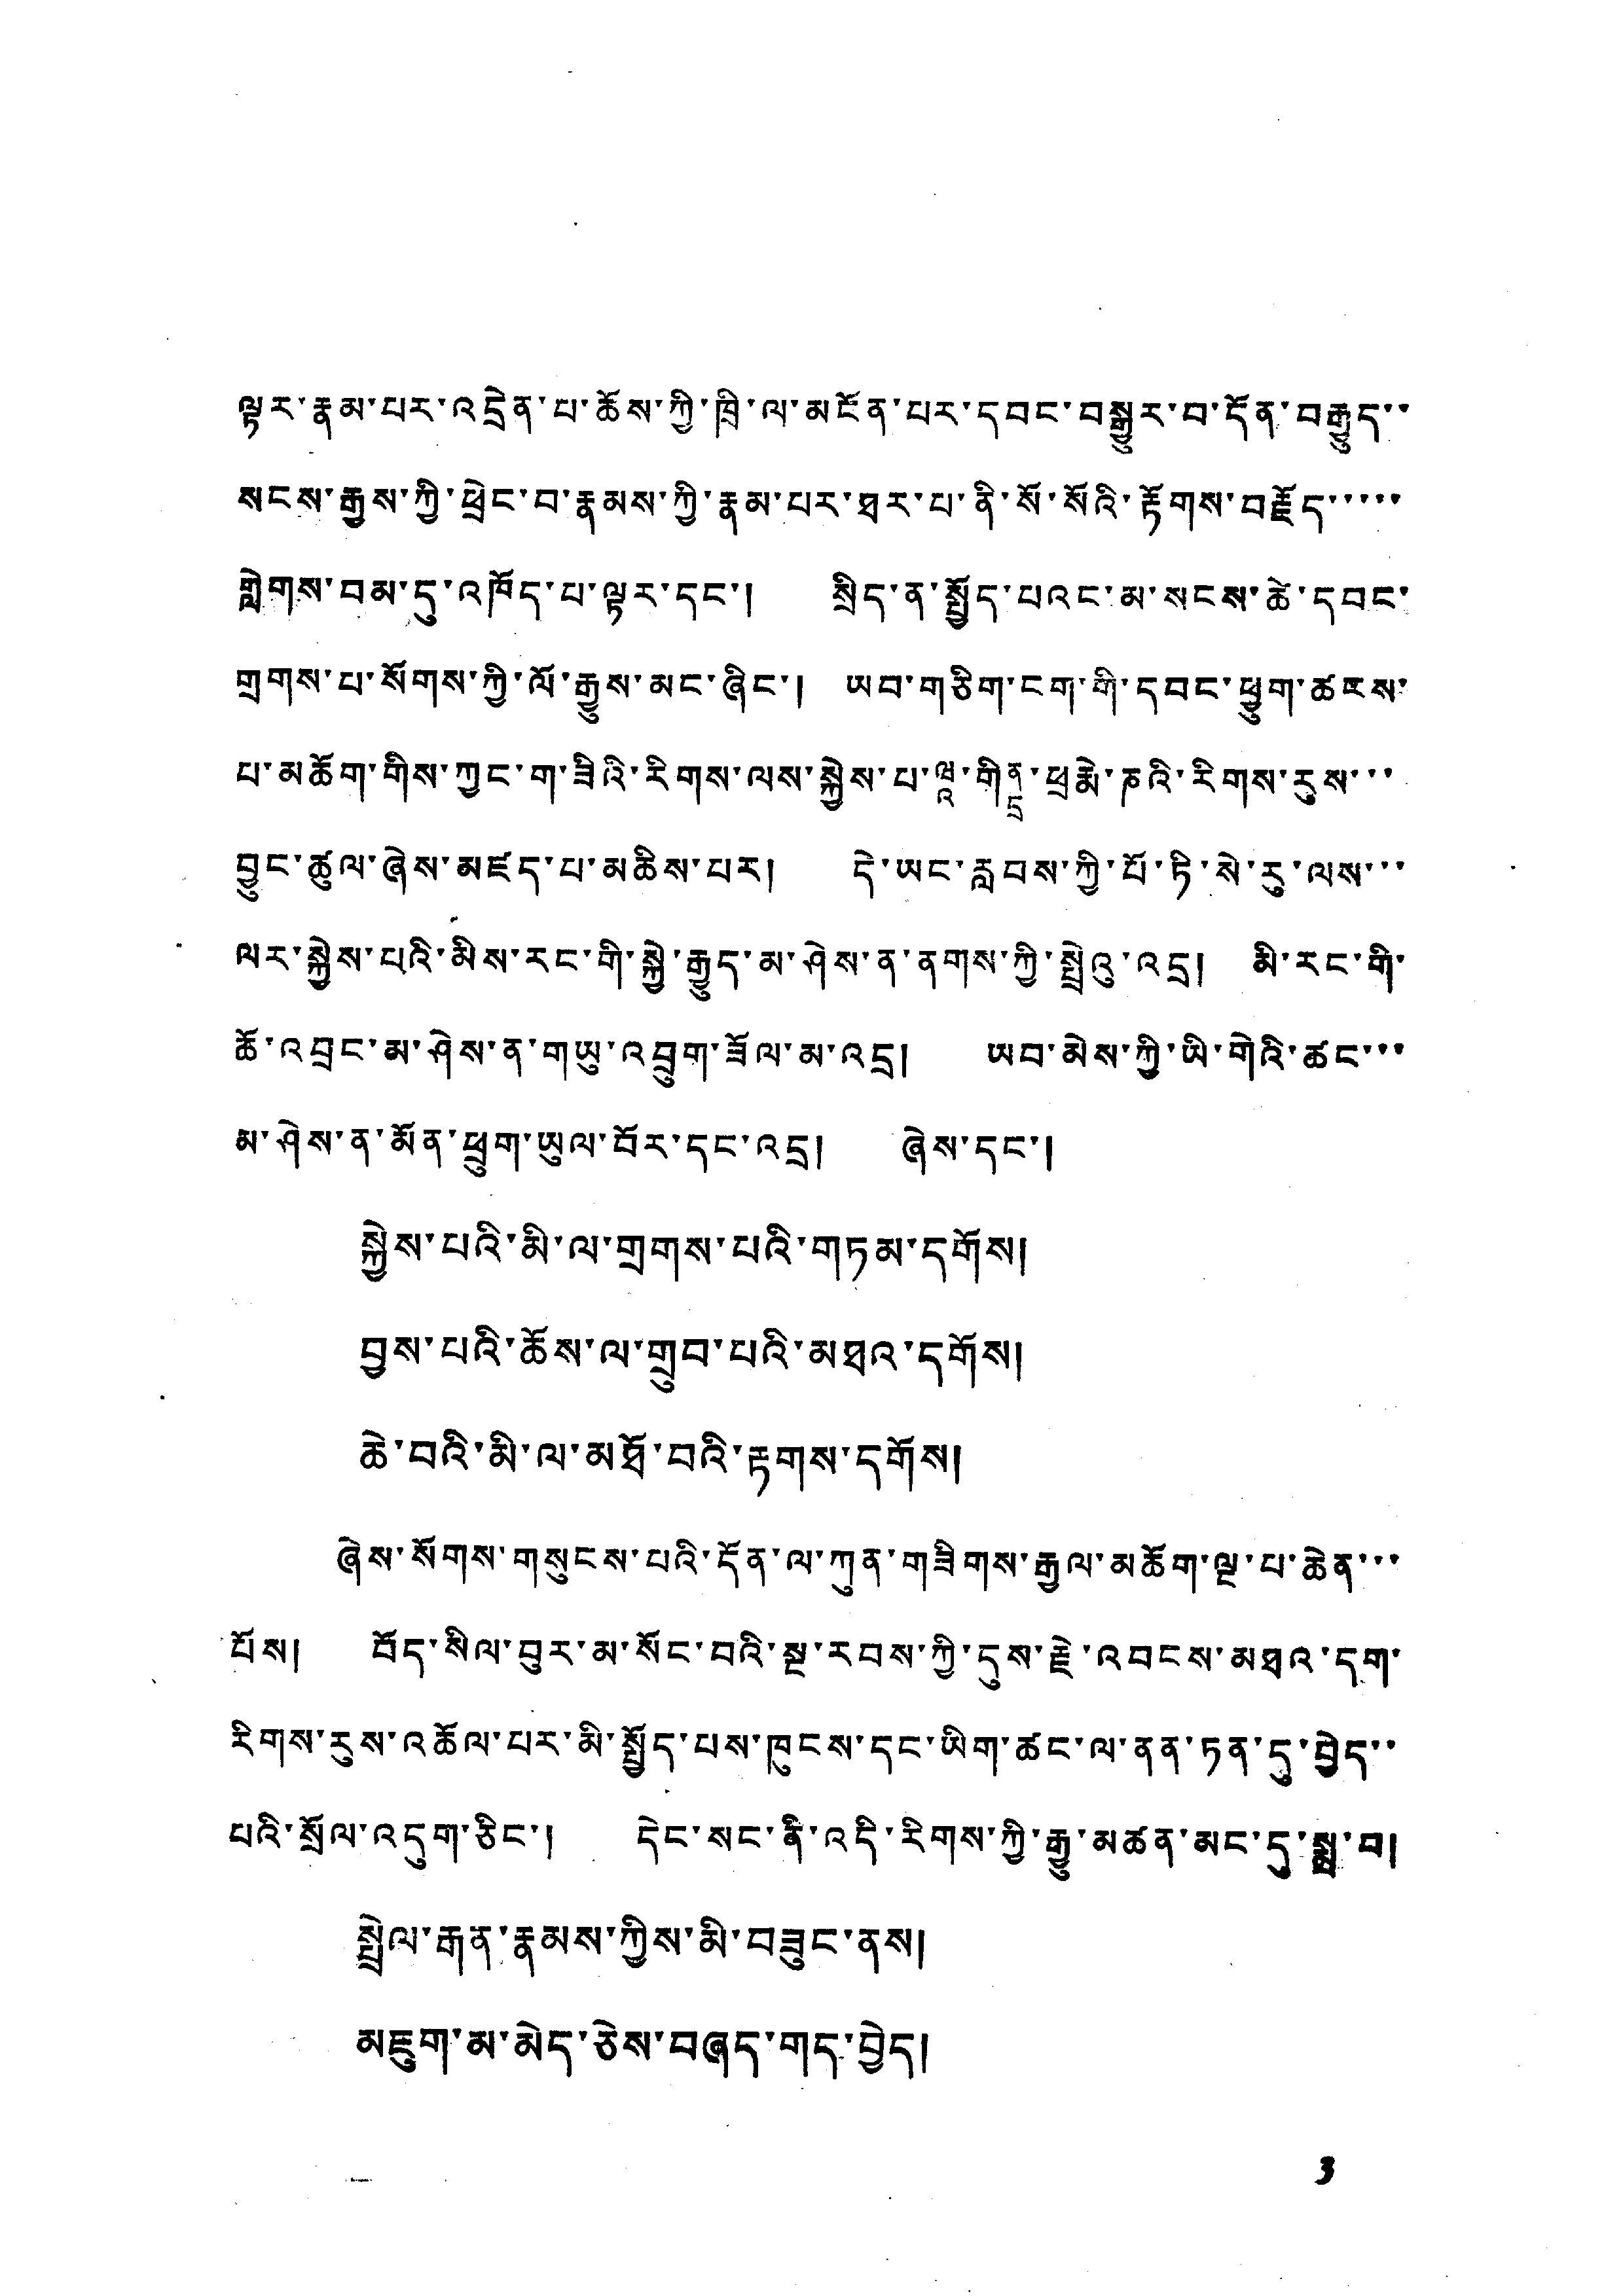ལྟར་རྣམ་པར་འདྲེན་པ་ཆོས་ཀྱི་ཁྲི་ལ་མངོན་པར་དབང་བསྒྱུར་བ་དོན་བརྒྱུད་་
སངས་རྒྱས་ཀྱི་ཕྲེང་བ་རྣམས་ཀྱི་རྣམ་པར་ཐར་པ་ནི་སོ་སོའི་རྟོགས་བརྗོད་་་་་
གླེགས་བམ་དུ་འཁོད་པ་ལྟར་དང་། སྲིད་ན་སྤྱོད་པའང་མ་སངས་ཚེ་དབང་
གྲགས་པ་སོགས་ཀྱི་ལོ་རྒྱུས་མང་ཞིང་། ཡབ་གཅིག་ངག་གི་དབང་ཕྱུག་ཚངས་
པ་མཆོག་གིས་ཀྱང་ག་ཟིའི་རིགས་ལས་སྐྱེས་པ་ཝཱ་གིནྡྲ་ཕྲརྨེ་ཎའི་རིགས་རུས་་་
བྱུང་ཚུལ་ཞེས་མཛད་པ་མཆིས་པར། དེ་ཡང་རླབས་ཀྱི་པོ་ཏི་སེ་རུ་ལས་་་
ལར་སྐྱེས་པའི་མིས་རང་གི་སྐྱེ་རྒྱུད་མ་ཤེས་ན་ནགས་ཀྱི་སྤྲེའུ་འདྲ། མི་རང་གི་
ཆོ་འབྲང་མ་ཤེས་ན་གཡུ་འབྲུག་ཟོལ་མ་འདྲ། ཡབ་མེས་ཀྱི་ཡི་གེའི་ཚང་་་
མ་ཤེས་ན་མོན་ཕྲུག་ཡུལ་བོར་དང་འདྲ། ཞེས་དང་།
སྐྱེས་པའི་མི་ལ་གྲགས་པའི་གཏམ་དགོས།
བྱས་པའི་ཆོས་ལ་གྲུབ་པའི་མཐའ་དགོས།
ཆེ་བའི་མི་ལ་མཐོ་བའི་རྟགས་དགོས།
ཞེས་སོགས་གསུངས་པའི་དོན་ལ་ཀུན་གཟིགས་རྒྱལ་མཆོག་ལྔ་པ་ཆེན་་་
པོས། བོད་སིལ་བུར་མ་སོང་བའི་སྔ་རབས་ཀྱི་དུས་རྗེ་འབངས་མཐའ་དག་
རིགས་རུས་འཆོལ་པར་མི་སྤྱོད་པས་ཁུངས་དང་ཡིག་ཚང་ལ་ནན་ཏན་དུ་བྱེད་་
པའི་སྲོལ་འདུག་ཅིང་། དེང་སང་ནི་འདི་རིགས་ཀྱི་རྒྱུ་མཚན་མང་དུ་སྨྲ་བ།
སྤེལ་རྒན་རྣམས་ཀྱིས་མི་བཟུང་ནས།
མཇུག་མ་མེད་ཅེས་བཞད་གད་བྱེད།
3
